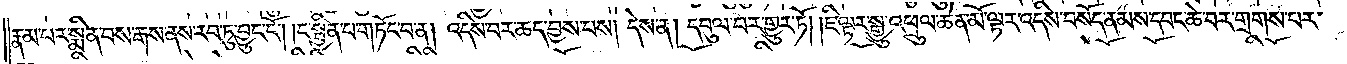རྣམ་པར་སྨིན་པས་རྒས་ནས་རབ་ཏུ་བྱུང་ངོ༌། །ང་སྦྱིན་པ་གཏོང་བ་ན། འདིས་བར་ཆད་བྱས་པས། དེས་ན། དབུལ་བར་གྱུར་ཏོ། །ཇི་ལྟར་སྒྱུ་འཕྲུལ་ཆེན་མོ་ལྟར་འདིས་བསོད་ནམས་དབང་ཆེ་བར་གྲགས་པར་
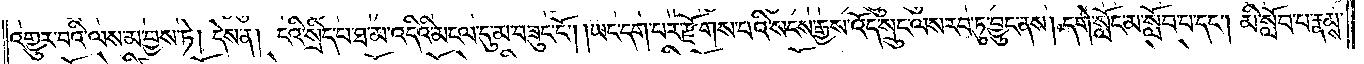འགྱུར་བའི་ལས་མ་བྱས་ཏེ། དེས་ན། ངའི་སྲིད་པ་ཐ་མ་འདིའི་མངལ་དུ་མ་བཟུང་ངོ༌། །ཡང་དག་པར་རྫོགས་པའི་སངས་རྒྱས་འོད་སྲུང་ལས་རབ་ཏུ་བྱུང་ནས། དགེ་སློང་མ་སློབ་པ་དང༌། མི་སློབ་པ་རྣམས་
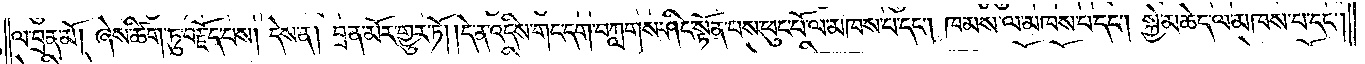ལ་བྲན་མོ། ཞེས་ཚིག་ཏུ་བརྗོད་པས། དེས་ན། བྲན་མོར་གྱུར་ཏོ། །དེ་ན་འདིས་གང་དག་བཀླགས་ཤིང་སྟོན་པས་ཕུང་པོ་ལ་མཁས་པ་དང༌། ཁམས་ལ་མཁས་པ་དང༌། སྐྱེ་མཆེད་ལ་མཁས་པ་དང༌།
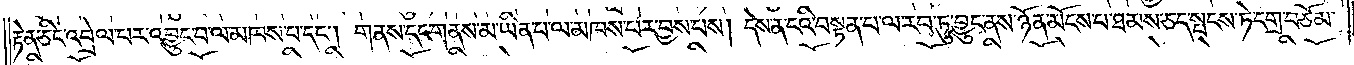རྟེན་ཅིང་འབྲེལ་པར་འབྱུང་བ་ལ་མཁས་པ་དང༌། གནས་དང་གནས་མ་ཡིན་པ་ལ་མཁས་པར་བྱས་པས། དེས་ན་ངའི་བསྟན་པ་ལ་རབ་ཏུ་བྱུང་ནས་ཉོན་མོངས་པ་ཐམས་ཅད་སྤངས་ཏེ་དགྲ་བཅོམ་
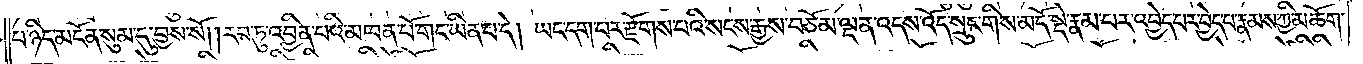པ་ཉིད་མངོན་སུམ་དུ་བྱས་སོ། །རབ་ཏུ་འབྱིན་པའི་མཁན་པོ་གང་ཡིན་པ་དེ། ཡང་དག་པར་རྫོགས་པའི་སངས་རྒྱས་བཅོམ་ལྡན་འདས་འོད་སྲུང་གིས་མདོ་སྡེ་རྣམ་པར་འབྱེད་པར་བྱེད་པ་རྣམས་ཀྱི་མཆོག་
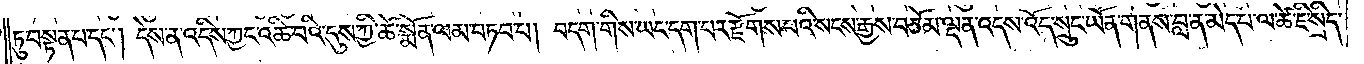ཏུ་བསྟན་པ་དང༌། དེས་ན་འདིས་ཀྱང་འཆི་བའི་དུས་ཀྱི་ཚེ་སྨོན་ལམ་བཏབ་པ། བདག་གིས་ཡང་དག་པར་རྫོགས་པའི་སངས་རྒྱས་བཅོམ་ལྡན་འདས་འོད་སྲུང་ཡོན་གནས་བླ་ན་མེད་པ་ལ་ཚེ་ཇི་སྲིད་
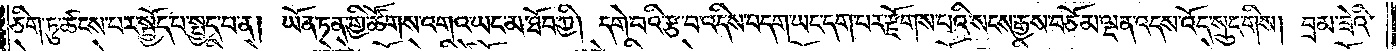ཅིག་ཏུ་ཚངས་པར་སྤྱོད་པ་སྤྱད་པ་ན། ཡོན་ཏན་གྱི་ཚོགས་འགའ་ཡང་མ་ཐོབ་ཀྱི། དགེ་བའི་རྩ་བ་འདིས་བདག་ཡང་དག་པར་རྫོགས་པའི་སངས་རྒྱས་བཅོམ་ལྡན་འདས་འོད་སྲུང་གིས། བྲམ་ཟེའི་
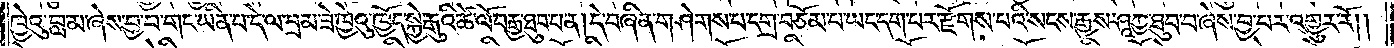ཁྱེའུ་བླ་མ་ཞེས་བྱ་བ་གང་ཡིན་པ་དེ་ལ་བྲམ་ཟེ་ཁྱེའུ་ཁྱོད་སྐྱེ་རྒུའི་ཚེ་ལོ་བརྒྱ་ཐུབ་པ་ན། དེ་བཞིན་གཤེགས་པ་དགྲ་བཅོམ་པ་ཡང་དག་པར་རྫོགས་པའི་སངས་རྒྱས་ཤཱཀྱ་ཐུབ་པ་ཞེས་བྱ་བར་འགྱུར་རོ། །
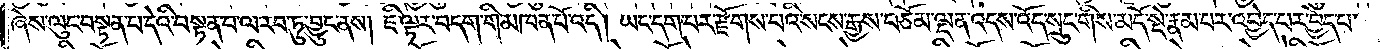ཞེས་ལུང་བསྟན་པ་དེའི་བསྟན་པ་ལ་རབ་ཏུ་བྱུང་ནས། ཇི་ལྟར་བདག་གི་མཁན་པོ་འདི། ཡང་དག་པར་རྫོགས་པའི་སངས་རྒྱས་བཅོམ་ལྡན་འདས་འོད་སྲུང་གིས་མདོ་སྡེ་རྣམ་པར་འཕྱེད་པར་བྱེད་པ་
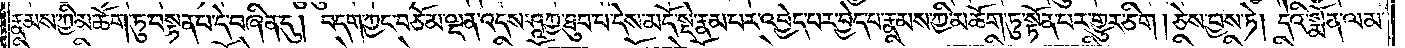རྣམས་ཀྱི་མཆོག་ཏུ་བསྟན་པ་དེ་བཞིན་དུ། བདག་ཀྱང་བཅོམ་ལྡན་འདས་ཤཱཀྱ་ཐུབ་པ་དེས་མདོ་སྡེ་རྣམ་པར་འབྱེད་པར་བྱེད་པ་རྣམས་ཀྱི་མཆོག་ཏུ་སྟོན་པར་གྱུར་ཅིག །ཅེས་བྱས་ཏེ། དེའི་སྨོན་ལམ་
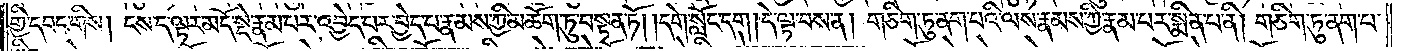གྱི་དབང་གིས། ངས་ད་ལྟར་མདོ་སྡེ་རྣམ་པར་འབྱེད་པར་བྱེད་པ་རྣམས་ཀྱི་མཆོག་ཏུ་བསྟན་ཏོ། །དགེ་སློང་དག །དེ་ལྟ་བས་ན། གཅིག་ཏུ་ནག་པའི་ལས་རྣམས་ཀྱི་རྣམ་པར་སྨིན་པ་ནི། གཅིག་ཏུ་ནག་པ་
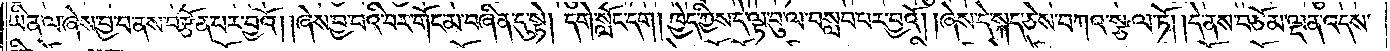ཡིན་ལ་ཞེས་བྱ་བ་ནས་བརྩོན་པར་བྱའོ། །ཞེས་བྱ་བའི་བར་གོང་མ་བཞིན་དུ་སྟེ། དགེ་སློང་དག །ཁྱེད་ཀྱིས་དེ་ལྟ་བུ་ལ་བསླབ་པར་བྱའོ། །ཞེས་དེ་སྐད་ཅེས་བཀའ་སྩལ་ཏོ། །དེ་ནས་བཅོམ་ལྡན་འདས་
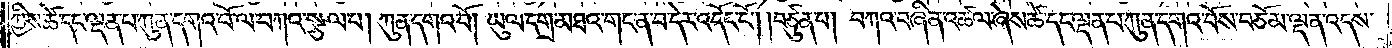ཀྱིས་ཚེ་དང་ལྡན་པ་ཀུན་དགའ་བོ་ལ་བཀའ་སྩལ་པ། ཀུན་དགའ་བོ། ཡུལ་དགྲ་མཐའ་གང་ན་བ་དེར་འདོང་ངོ༌། །བཙུན་པ། བཀའ་བཞིན་འཚལ་ཞེས་ཚེ་དང་ལྡན་པ་ཀུན་དགའ་བོས་བཅོམ་ལྡན་འདས་
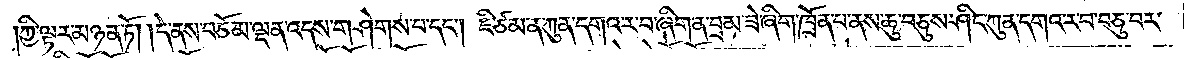།ཀྱི་ལྟར་མཉན་ཏོ། །དེ་ནས་བཅོམ་ལྡན་འདས་གཤེགས་པ་དང༌། ཇི་ཙམ་ན་ཀུན་དགའ་ར་བ་ཞིག་ན་བྲམ་ཟེ་ཞིག་ཁྲོན་པ་ནས་ཆུ་བཅུས་ཤིང་ཀུན་དགའ་ར་བ་བཅུ་བར་
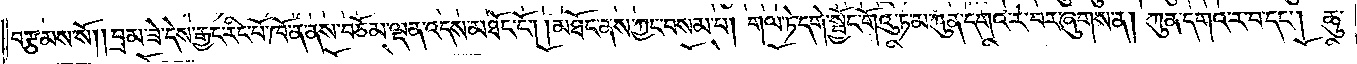བརྩམས་སོ། །བྲམ་ཟེ་དེས་རྒྱང་རིང་པོ་ཁོ་ན་ནས་བཅོམ་ལྡན་འདས་མཐོང་ངོ༌། །མཐོང་ནས་ཀྱང་བསམ་པ། གལ་ཏེ་དགེ་སྦྱོང་གོའུ་ཏ་མ་ཀུན་དགའ་ར་བར་ཞུགས་ན། ཀུན་དགའ་ར་བ་དང༌། ཆུ་
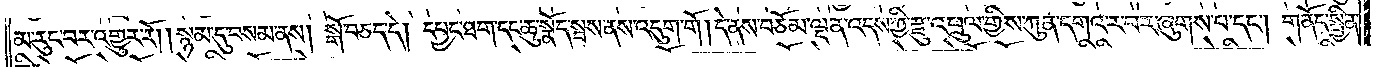མ་རུང་བར་འགྱུར་རོ། །སྙམ་དུ་བསམ་ནས། སྒོ་བཅད་དེ། དཔྱང་ཐག་དང་ཆུ་སྣོད་སྦས་ནས་འདུག་གོ །དེ་ནས་བཅོམ་ལྡན་འདས་ཀྱི་རྫུ་འཕྲུལ་གྱིས་ཀུན་དགའ་ར་བར་ཞུགས་པ་དང༌། གནོད་སྦྱིན་
